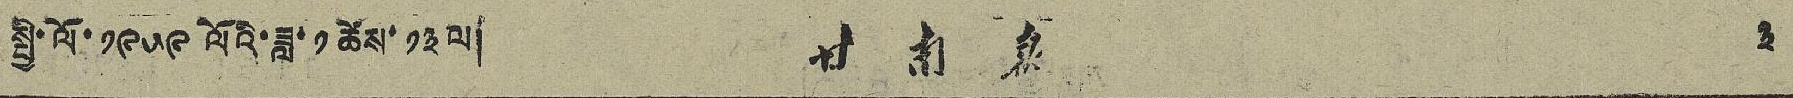སྤྱི་ལོ་ ༡༩༥༩ ལོའི་ཟླ་ ༡ ཚེས་ ༡༣ ལ། 甘 南 報 ༣
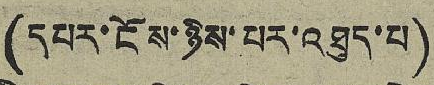(དཔར་ངོས་ཉིས་པར་འཐུད་པ)
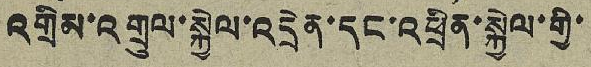འགྲིམ་འགྲུལ་སྐྱེལ་འདྲེན་དང་འཕྲིན་སྐྱེལ་གྱི་
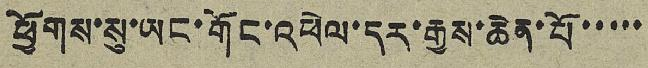ཕྱོགས་སུ་ཡང་གོང་འཕེལ་དར་རྒྱས་ཆེན་པོ་་་་་
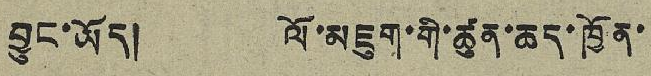བྱུང་ཡོད། ལོ་མཇུག་གི་ཚུན་ཆད་ཁྱོན་
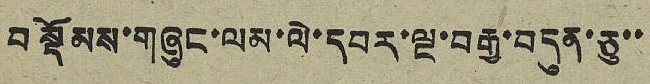བསྡོམས་གཞུང་ལམ་ལེ་དབར་ལྔ་བརྒྱ་བདུན་ཅུ་་
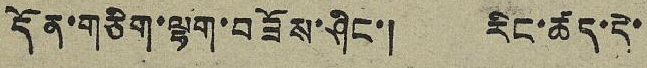དོན་གཅིག་ལྷག་བཟོས་ཤིང་། རིང་ཚད་དེ་
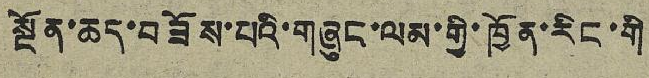སྔོན་ཆད་བཟོས་པའི་གཞུང་ལམ་གྱི་ཁྱོན་རིང་གི
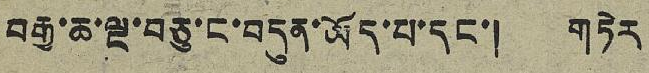བརྒྱ་ཆ་ལྔ་བཅུ་ང་བདུན་ཡོད་པ་དང་། གཏེར
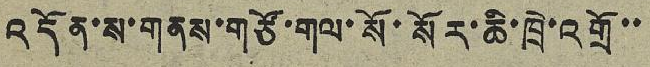འདོན་ས་གནས་གཙོ་གལ་སོ་སོར་ཆི་ཁྲེ་འགྲོ་་
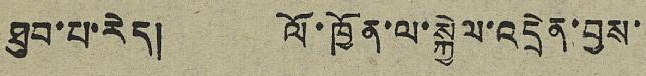ཐུབ་པ་རེད། ལོ་ཁྱོན་ལ་སྐྱེལ་འདྲེན་བྱས་
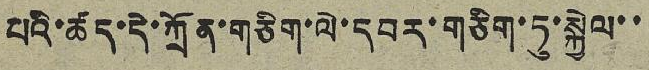པའི་ཚད་དེ་ཀྲོན་གཅིག་ལེ་དབར་གཅིག་ཏུ་སྐྱེལ་་
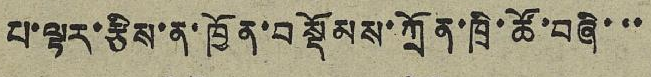པ་ལྟར་རྩིས་ན་ཁྱོན་བསྡོམས་ཀྲོན་ཁྲི་ཚོ་བཞི་་་
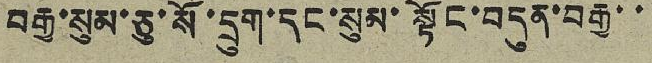བརྒྱ་སུམ་ཅུ་སོ་དྲུག་དང་སུམ་སྟོང་བདུན་བརྒྱ་་
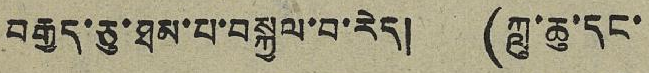བརྒྱད་ཅུ་ཐམ་པ་བསྐྱལ་བ་རེད། (ཀླུ་ཆུ་དང་
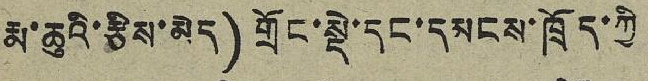རྨ་ཆུའི་རྩིས་མེད) གྲོང་སྡེ་དང་དམངས་ཁྲོད་ཀྱི
